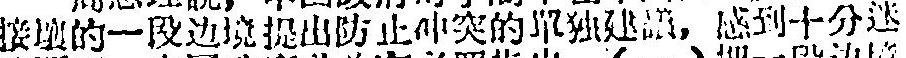接壤的一段边境提出防止冲突的單独建議，感到十分迷
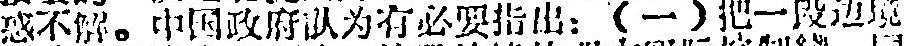惑不解。中国政府认为有必要指出：（一）把一段边境
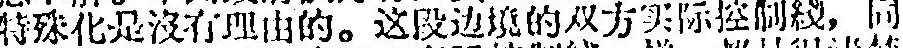特殊化是沒有理由的。这段边境的双方实际控制綫，同
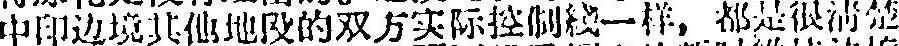中印边境其他地段的双方实际控制綫一样，都是很清楚
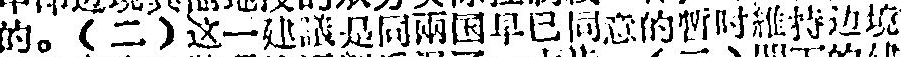的。（二）这一建議是同兩国早已同意的暫时維持边境
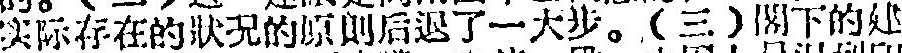实际存在的狀况的原則后退了一大步。（三）閣下的建
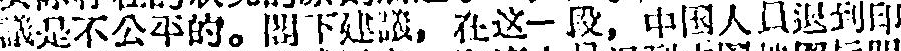議是不公平的。閣下建議，在这一段，中国人員退到印
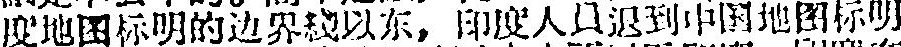度地图标明的边界綫以东，印度人員退到中国地图标明
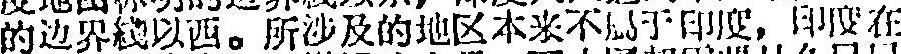的边界綫以西。所涉及的地区本来不属于印度，印度在
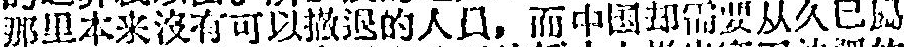那里本来沒有可以撤退的人員，而中国却需要从久已属
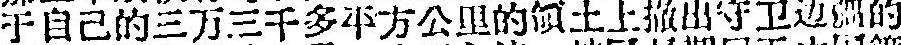于自己的三万三千多平方公里的領土上撤出守卫边疆的
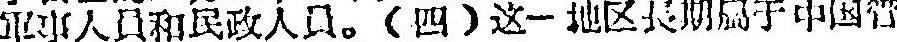軍事人員和民政人員。（四）这一地区長期属于中国管
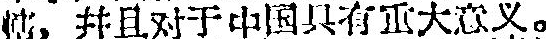轄，并且对于中国具有重大意义。
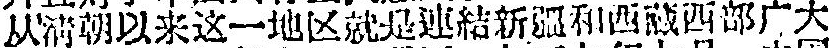从清期以来这一地区就是連結新疆和西藏西部广大
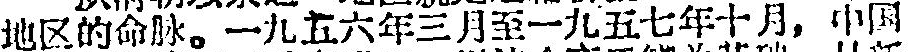地区的命脉。一九五六年三月至一九五七年十月，中国
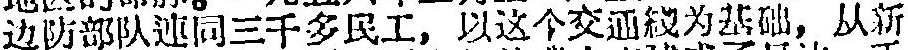边防部队連同三千多民工，以这个交通綫为基础，从新
